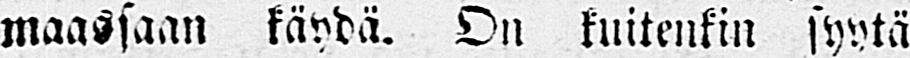maassaan käydä. On kuitenkin syytä
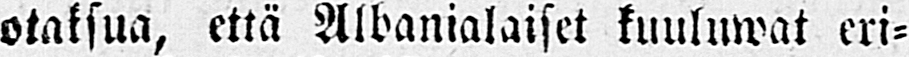otaksua, että Albanialaiset kuuluwat eri-
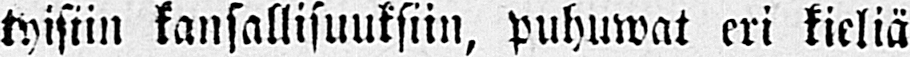tyisiin kansallisuuksiin, puhuwat eri kieliä
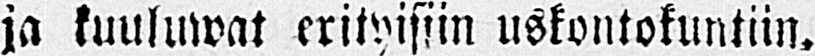ja kuuluwat erityisiin uskontokuntiin.
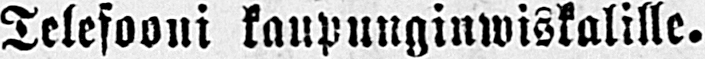Telefooni kaupunginwiskalille.
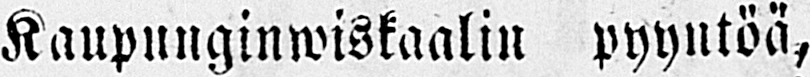Kaupunginwiskaalin pyyntöä,
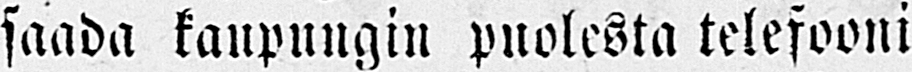saada kaupungin puolesta telefooni
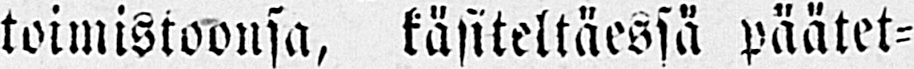toimistoonsa, käsiteltäessä päätet-
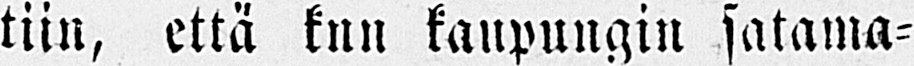tiin, että kun kaupungin satama-
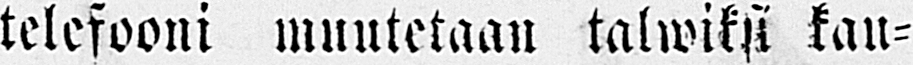telefooni muutetaan talwiksi kau-
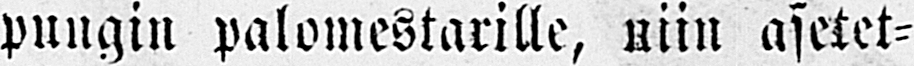pungin palomestarille, niin asetet-
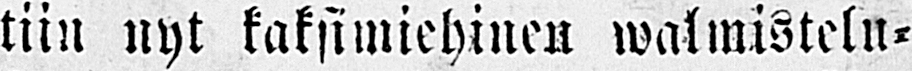tiin nyt kaksimiehinen walmistelu-
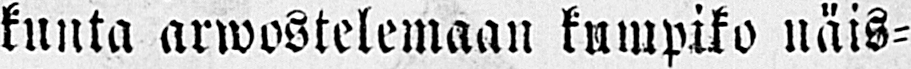kunta arwostelemaan kumpiko näis-
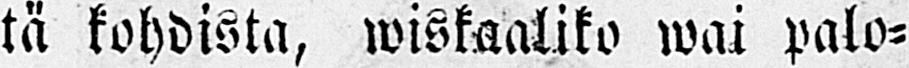tä kohdista, wiskaaliko wai palo-
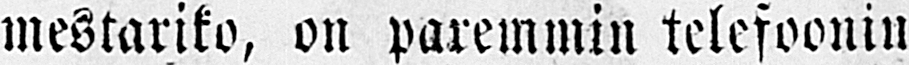mestariko, on paremmin telefoonin
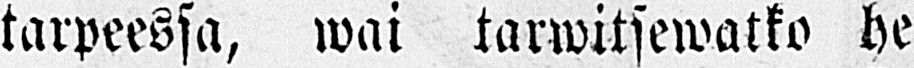tarpeessa, wai tarwitsewatko he
